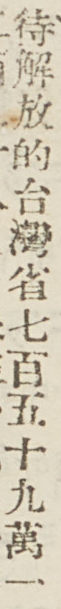待解放的台灣省七百五十九萬一
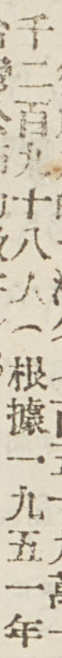千二百九十八人（根據一九五一年
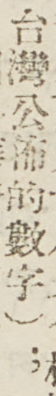台灣公佈的數字）；
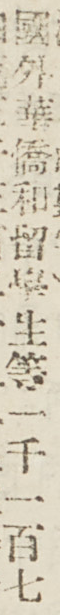國外華僑和留學生等一千一百七
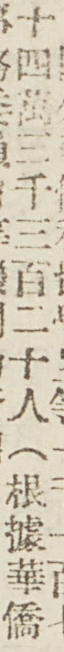十四萬三千三百二十人（根據華僑
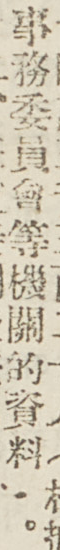事務委員會等機關的資料）。
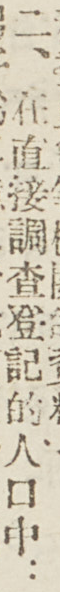二、在直接調查登記的人口中：
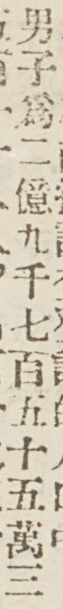男子爲二億九千七百五十五萬三
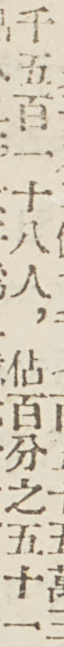千五百一十八人，佔百分之五十一
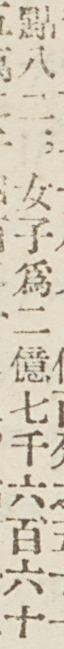點八二；女子爲二億七千六百六十
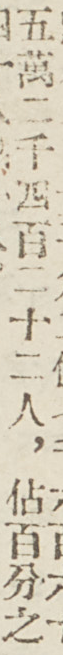五萬二千四百二十二人，佔百分之
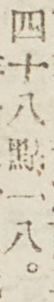四十八點一八。
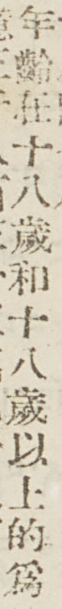年齡在十八歲和十八歲以上的爲
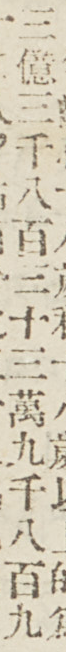三億三千八百三十三萬九千八百九
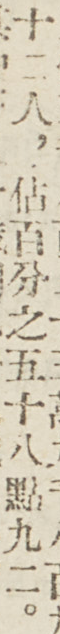十二人，佔百分之五十八點九二。
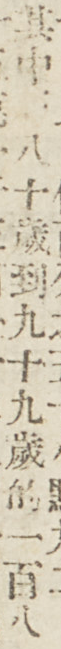其中：八十歲到九十九歲的一百八
